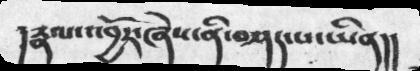།རྣལ་འབྱོར་ཞེས་ནི་བཤད་པ་ཡིན།།
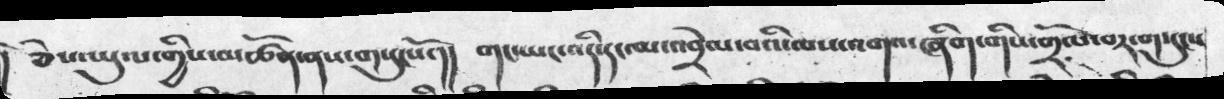།  ཅེས་ཡུལ་གྱིས་མཚོན་ནས་གསུངསོ་།།  གང་ཡང་འདི་དང་མ་འབྲེལ་བའི་ལས་འགའ་ཞིག་གིས་གྲོལ་བར་གསུངས
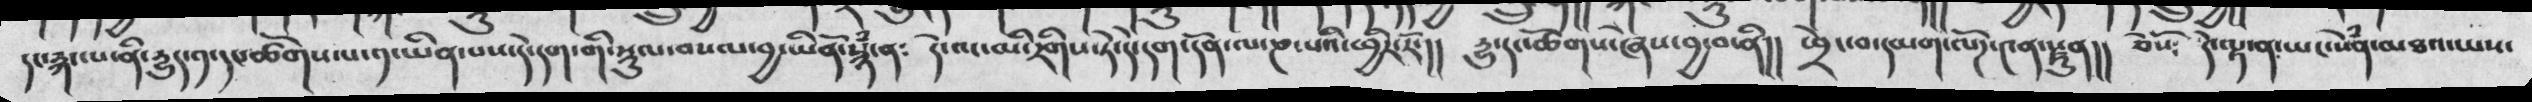དང་རྐང་པ་ནི་དྱུད་༡་དང་ཚོགས་པ་༡་ཡིན་པ་དེ་དག་གི་སྡུལ་བསལ་བྱ་ཡིནོ་སྙཾ་ན༴  དེ་ལྔ་མི་རིགས་ཏེ་དེ་དག་དོན་ལ་ཎ་པའི་ཕྱིར་རོ་།།  དྱུ་དང་ཚོགས་ཞེས་བྱ་བ་ནི།།  ཕྲེང་བ་དམག་ལོཌ་༤ན་རྫུན།།  ཅེསོ༴  དེ་ལྟ་ན་ཡང་སེཾན་མཐའ་ཡས་
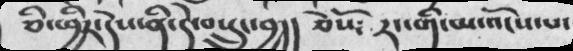ཅི་ཕྱིར་དེས་ནི་དེ་བསྲུང་བྱ།།  ཅེསོ༴  རང་གི་མ་འོངས་པ་
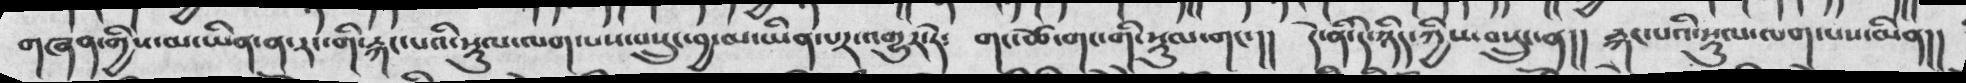གཞན་གྱིས་མ་ཡིན་ན་རང་གི་རྐང་པའི་སྡུལ་ལག་པས་བསྲུང་བྱ་མ་ཡིན་པར་འགྱུར་ཏེ༴   གང་ཚེ་གང་གི་སྡུལ་གང་།།    དེ་ནི་དེ་ཉིད་ཀྱིས་བསྲུང་ན།།   རྐང་པའི་སྡུལ་ལག་པས་མིན།།
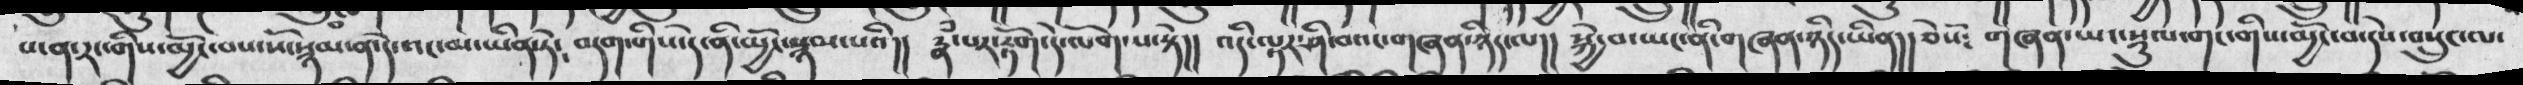པ་ན་རང་གིས་མྱོང་པས་སོ་སྙམ་ན་དེ་འང་མཡིན་ཏེ༴  བདག་གིས་དེ་ནི་མྱོང་སྙམ་པའི།།  རྣམ་པར་རྟོག་དེ་ལོག་པ་སྟེ།།   འདི་ལྟར་ཤི་བའང་གཞན་ཉིད་ཡིན།། ཅེསོ༴  གཞན་ཡང་སྡུལ་གང་གིས་མྱོང་བ་དེས་བསྲུང་ལ་
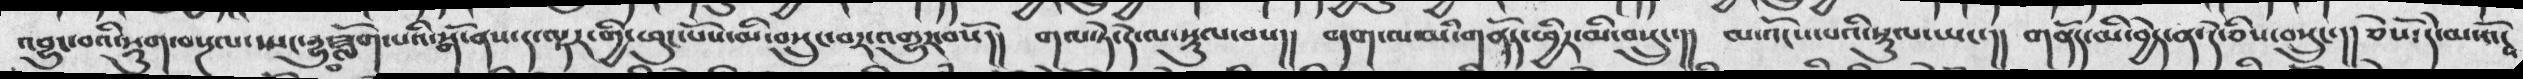འབྱུང་བའི་སྡུག་བསྔལ་སྤང་དྱུ་ཟློག་པའི་སྒོ་ནས་ད་ལྟར་གྱི་ཕུང་པོས་མི་བསྲུང་བར་འགྱུར་བསོ།།  གལ་ཏེ་དེ་ལ་སྡུལ་བས།།  བདག་ལ་མི་གནོད་ཕྱིར་མི་བསྲུང་།།  མ་འོངས་པའི་སྡུལ་ཡང་།།  གནོད་མི་བྱེད་ན་དེ་ཅིས་བསྲུང་།།  ཅེསོ༴དེ་མ་འོངས
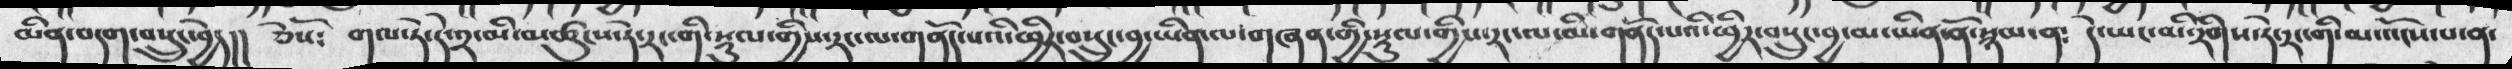མིན་བདག་བསྲུང་བྱེད།། ཅེསོ༴ གལ་ཏེ་དེ་༢་མི་མཚུངས་ཏེ་རང་གི་སྡུལ་གྱིས་རང་ལ་གནོད་པའི་ཕྱིར་བསྲུང་བྱ་ཡིན་ལ་གཞན་གྱི་སྡུལ་གྱིས་རང་ལ་མི་གནོད་པའི་ཕྱིར་བསྲུང་བྱ་མ་ཡིན་ནོ་སྙམ་ན༴ དེ་ཡང་མི་རིགས་ཏེ་རང་གི་མ་འོངས་པ་ན་
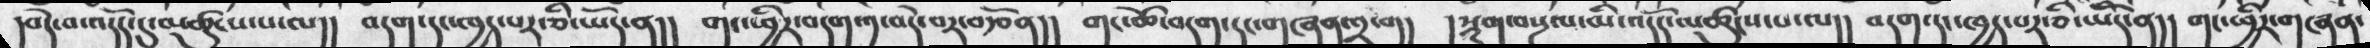།བདེ་བ་འདོད་དུ་མཚུངས་པ་ལ།།  བདག་དང་ཁྱད་པར་ཅི་ཡོད་ན།།  གང་ཕྱིར་བདག་༡་བདེ་བར་བརྩོན།།  གང་ཚོ་བདག་དང་གཞན་༢་ག།  །སྡུག་བསྔལ་མི་འདོད་མཚུངས་པ་ལ།།  བདག་དང་ཁྱད་པར་ཅི་ཡོད་ན།།  གང་ཕྱིར་གཞན་
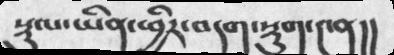སྡུལ་ཡིན་ཕྱིན་བདག་སྡུག་༤ན།།
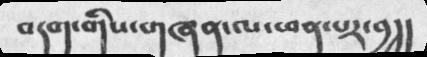བདག་གིས་གཞན་ལ་ཕན་པར་བྱ།།
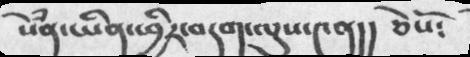སེཾན་ཡིན་ཕྱིར་བདག་ལུས་༤ན།།  ཅེསོ༴
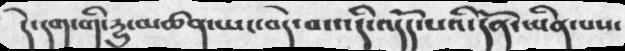དེ་དག་གི་རྒྱུ་མཚན་ཡང་བདེ་བ་འདི་འདོད་པའི་དནོ་ཡིན་པས་
